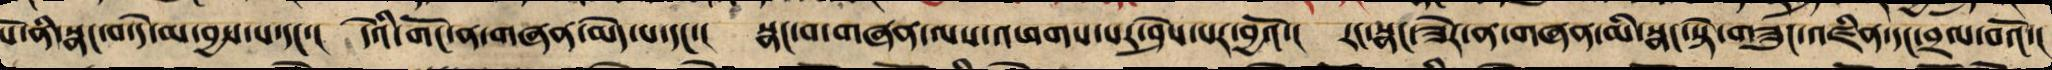པོ་ནི་སྣང་བ་དེ་མ་བྱས་པ་དང་། དེའི་གོང་ན་གཞན་མེད་པ་དང་། སྣང་བ་གཞན་ལས་འཕགས་པར་ཤེས་པར་བྱའོ་། རང་སྣང་ཟེར་ན་གཞན་མི་སྣང་སྟེ་གཟུང་འཛིན་དང་བྲལ་བའོ་།
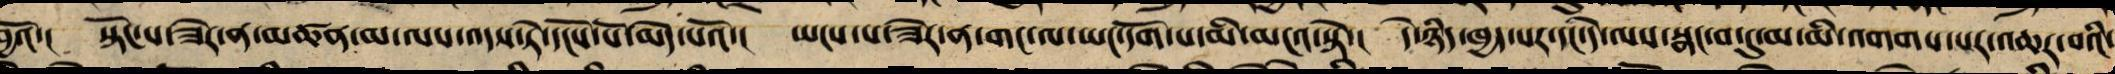བྱའོ་། སྟོང་པ་ཟེར་ན་མཚན་མ་ལས་འདས་ཏེ་དངོས་པོ་མེད་པའོ་། ཡངས་པ་ཟེར་ན་གང་ལ་ཡང་དོག་པ་མི་མངའ་སྟེ་། དེ་ཉིད་ཀྱི་ཁྱད་པར་དང་དེ་ལས་སྣང་བ་དུ་མ་མི་འགགས་པར་འཆར་བའི་
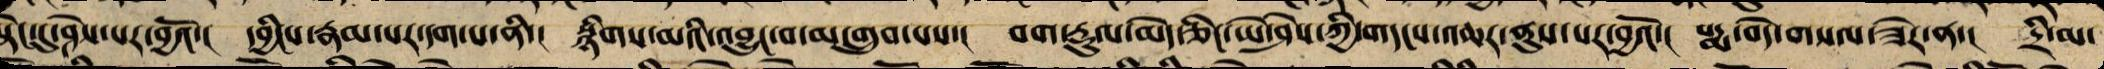སྟེང་དུ་ཤེས་པར་བྱའོ་། དབྱིངས་རྣམ་པར་དག་པ་ནི་། སྙིགས་མའི་འབྱུང་བ་མ་གྲུབ་པས་། བག་རྡུལ་མེད་ཅིང་ཡེ་ཤེས་ཀྱི་གདངས་འཆར་ནུས་པར་བྱའོ་། པདྨ་བདེ་གསལ་ཟེར་ན་། དྲི་མ་
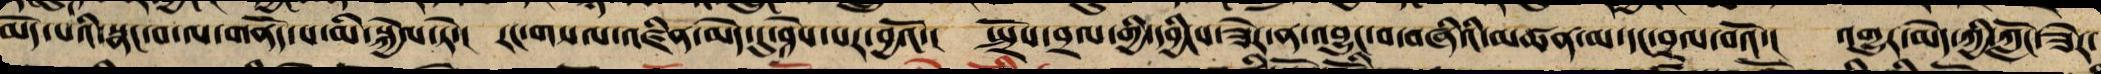མེད་པའི་སྣང་བ་ལ་གནོད་པ་མི་སྐྱེལ་ཏེ་། རང་གསལ་འཛིན་མེད་དུ་ཤེས་པར་བྱའོ་། སྤྲོས་བྲལ་གྱི་དབྱིངས་ཟེར་ན་འབྱུང་བ་བཞིའི་མཚན་མ་དང་བྲལ་བའོ་། འགྱུར་མེད་ཀྱི་ཀློང་ཟེར་
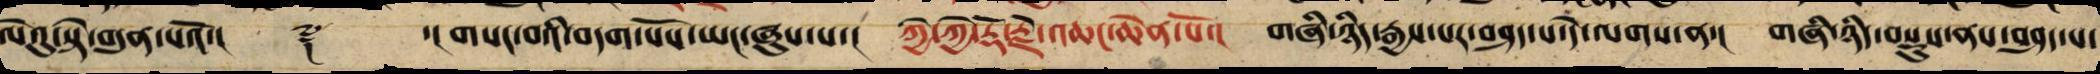ལེའུ་སྟེ་བདུན་པའོ་།། ༈ ་།གསང་བའི་བདག་པོས་ཡང་ཞུས་པ་། ཀྱེ་ཀྱེ་རྡོ་རྗེ་འཆང་ཆེན་པོ་། གཞི་ཉིད་རྒྱས་པར་བཤད་པ་དེ་ལགས་ན་། གཞི་ཉིད་བསྡུས་ནས་བཤད་པ་
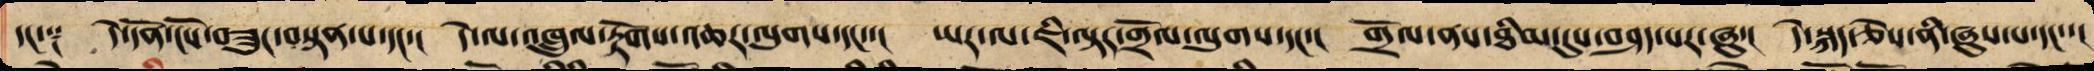དང་༑ དེ་དོན་ངོས་བཟུང་བསྟན་པ་དང་། དེ་ལ་འཁྲུལ་རྟོགས་འཆར་ལུགས་དང་་། ཡར་ལ་ཇི་ལྟར་གྲོལ་ལུགས་དང་། གྲོལ་ནས་ཐིམ་དུས་བཤད་པར་ཞུ་། དེ་སྐད་ཅེས་ནི་ཞུས་པ་དང་་།
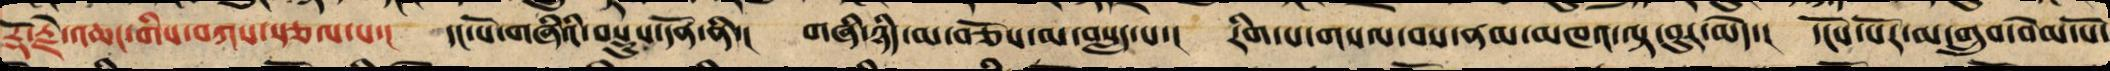རྡོ་རྗེ་འཆང་གིས་བཀས་སྩལ་པ་། དང་པོ་གཞིའི་བསྡུས་དོན་ནི་། གཞི་ཉིད་མ་བཅོས་མ་བསླད་པ་། རིག་པ་གསལ་བས་ནམ་མཁའ་ལྟ་བུར་མེད་། དངོས་པོར་མ་གྲུབ་བེམ་པོ་
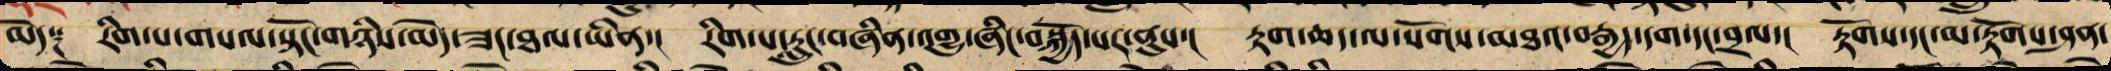མེད༑ རིག་པ་གསལ་སྟོང་གཉིས་མེད་ཟང་ཐལ་ཡིན་། རིག་པ་རླུང་བཞིན་འགྱུ་ཞིང་བསྐྱོད་པར་ནུས་། རྟག་ཆད་ལ་སོགས་མཐའ་བརྒྱད་དག་དང་བྲལ་། རྟོགས་དང་མ་རྟོགས་ཤན་
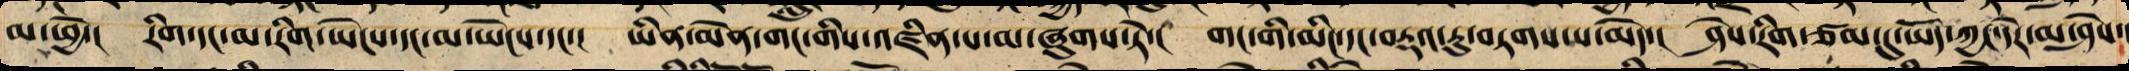མ་ཕྱོ་། རིག་དང་མ་རིག་ཡེངས་དང་མ་ཡེངས་དང་། ཡིན་མེན་གང་གི་འཛིན་པ་མ་ཞུགས་ཏེ་། གང་གི་མིང་དང་བརྡའ་རུ་བཏགས་པ་མེད་། ཤེས་རིག་ཙམ་དུ་ཡོད་ཀྱང་དེར་མ་ཤེས་། །
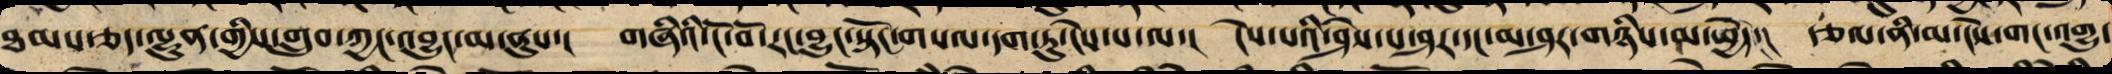ཐམས་ཅད་ལྷུན་གྱིས་གྲུབ་ཀྱང་འབྱུང་མ་ནུས་། གཞིའི་ངོ་བོ་རང་བྱུང་སྟོང་གསལ་དག་ཏུ་ངེས་པ་ལ་། ངེས་པའི་ཤེས་པ་ཤར་དང་མ་ཤར་གཉིས་མ་ཕྱེད་། རྩལ་ནི་མ་ངེས་གང་འགྱུ་
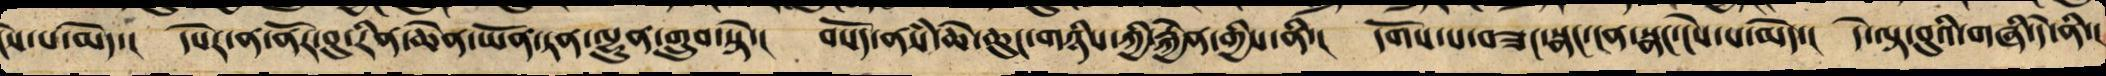ངེས་པ་མེད་། དཔེར་ན་ནོར་བུ་རིན་ཆེན་ཡོན་ཏན་ལྷུན་གྲུབ་སྟེ་། བསོད་ནཾས་ཆེ་ཆུང་གཉིས་ཀྱི་རྐྱེན་གྱིས་ནི་། དགོས་པ་བཟང་སྣང་ངན་སྣང་ངེས་པ་མེད་། དེ་ལྟ་བུའི་གཞི་དེ་ནི་།
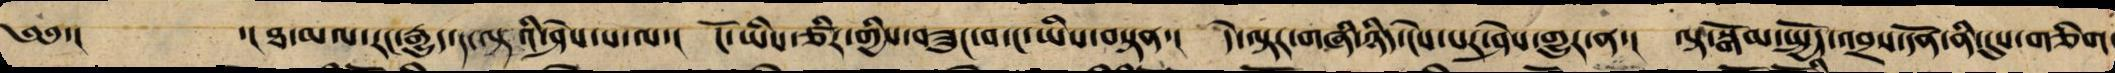༄༅་། ་། ཐ་མལ་རང་རྒྱུད་ད་ལྟའི་ཤེས་པ་ལ་། ངོ་ཡིས་ཙིར་གྱིས་བཟུང་བར་ང་ཡིས་བསྟན་། དེ་ལྟར་གཞི་ཉིད་ངེས་པར་ཤེས་གྱུར་ན་། ལྟ་སྒོམ་སྤྱོད་འབྲས་དོན་ནི་དུས་གཅིག་
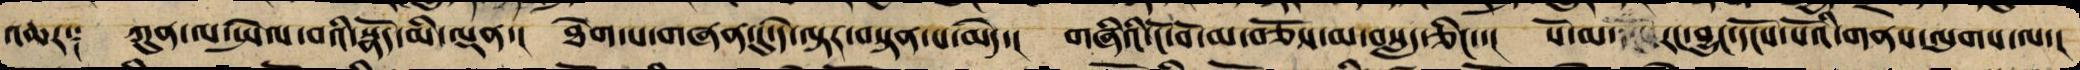འཆར༑ ཀུན་ལ་སྤེལ་བའི་སྣོད་མི་ལྡན་། ཐེག་པ་གཞན་དུ་དེ་ལྟར་བསྟན་པ་མེད་། གཞིའི་ངོ་བོ་མ་བཅོས་མ་བསླད་ཅིང་་། སོ་མ་ རང་བྱུང་དངོས་པོའི་གནས་ལུགས་ལ་།
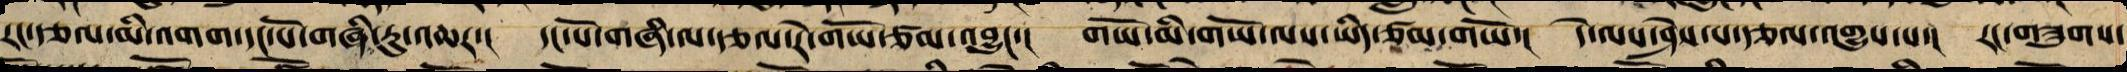རང་རྩལ་མི་འགགས་དང་པོ་གཞི་རུ་འཆར་། དང་པོ་གཞི་ལས་རྩལ་དེ་གཡོ་ཙམ་འབྱུང་། གཡོ་མི་གཡོ་ལས་ཡིད་ཙམ་གཡོ་། དེ་ལས་ཤེས་པ་རྩལ་འགྱུས་པ་། རང་གཟུགས་
